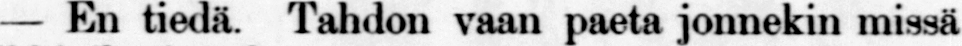— En tiedä. Tahdon vaan paeta jonnekin missä
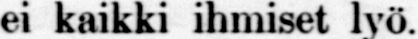ei kaikki ihmiset lyö,
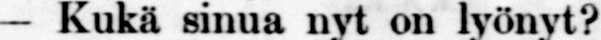— Kukä sinua nyt on lyönyt?
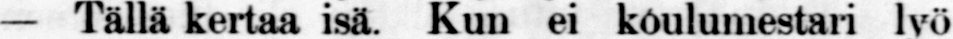— Tällä Kertaa isä. Kun ei koulumestari lyö
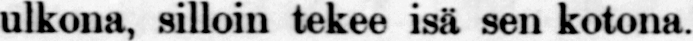ulkona, silloin tekee isä sen kotona.
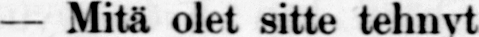— Mitä olet sitte tehnyt.
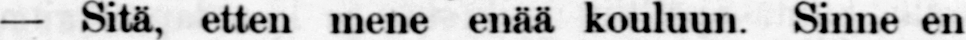— Sitä, etten mene enää kouluun. Sinne en
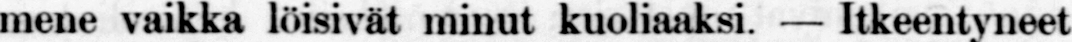mene vaikka löisivat minut — Itkeentyneet
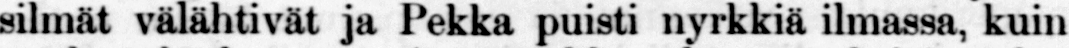silmät välähtivät ja Pekka puisti nyrkkiä ilmassa, kuin
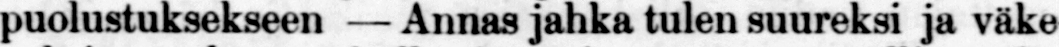puolustuksekseen — Annas jahka tulen suureksi ja väke-
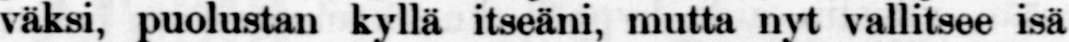väksi, puolustan kyllä itseäni, mutta nyt vallitsee isä
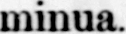minua.
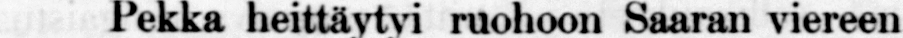Pekka heittäytyi ruohoon Saaran viereen.
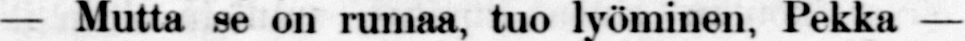— Mutta se on rumaa, tuo lyöminen, Pekka —
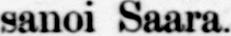sanoi Saara.
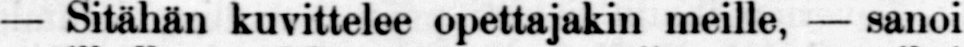— Sitähän kuvittelee opettajakin meille, — sanoi
